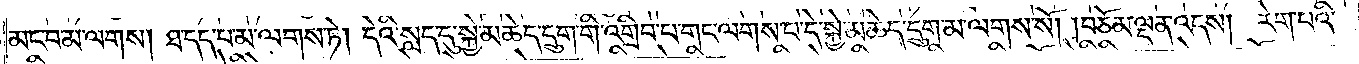མང་བ་མ་ལགས། ཐ་དད་པ་མ་ལགས་ཏེ། དེའི་སླད་དུ་སྐྱེ་མཆེད་དྲུག་གི་འགྲིབ་པ་གང་ལགས་པ་དེ་སྐྱེ་མཆེད་དྲུག་མ་ལགས་སོ། ། བཅོམ་ལྡན་འདས། རེག་པའི་
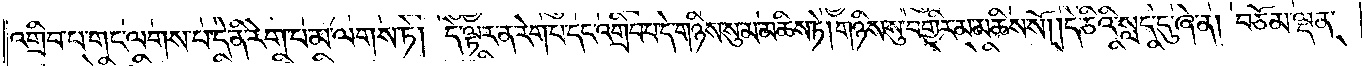འགྲིབ་པ་གང་ལགས་པ་དེ་ནི་རེག་པ་མ་ལགས་ཏེ། དེ་ལྟར་ན་རེག་པ་དང་འགྲིབ་པ་དེ་གཉིས་སུ་མ་མཆིས་ཏེ། གཉིས་སུ་བགྱིར་མ་མཆིས་སོ། །དེ་ཅིའི་སླད་དུ་ཞེ་ན། བཅོམ་ལྡན་
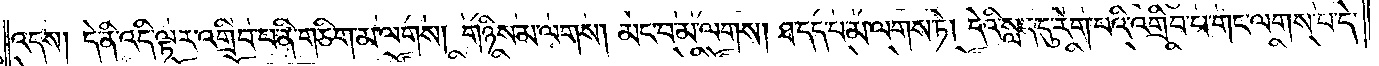འདས། དེ་ནི་འདི་ལྟར་འགྲིབ་པ་ནི་གཅིག་མ་ལགས། གཉིས་མ་ལགས། མང་བ་མ་ལགས། ཐ་དད་པ་མ་ལགས་ཏེ། དེའི་སླད་དུ་རེག་པའི་འགྲིབ་པ་གང་ལགས་པ་དེ་
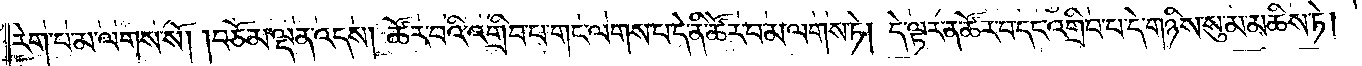རེག་པ་མ་ལགས་སོ། །བཅོམ་ལྡན་འདས། ཚོར་བའི་འགྲིབ་པ་གང་ལགས་པ་དེ་ནི་ཚོར་བ་མ་ལགས་ཏེ། དེ་ལྟར་ན་ཚོར་བ་དང་འགྲིབ་པ་དེ་གཉིས་སུ་མ་མཆིས་ཏེ།
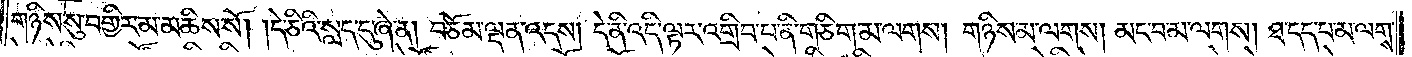གཉིས་སུ་བགྱིར་མ་མཆིས་སོ། །དེ་ཅིའི་སླད་དུ་ཞེ་ན། བཅོམ་ལྡན་འདས། དེ་ནི་འདི་ལྟར་འགྲིབ་པ་ནི་གཅིག་མ་ལགས། གཉིས་མ་ལགས། མང་བ་མ་ལགས། ཐ་དད་པ་མ་ལགས་
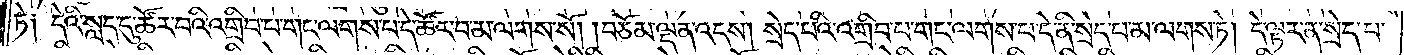ཏེ༑ དེའི་སླད་དུ་ཚོར་བའི་འགྲིབ་པ་གང་ལགས་པ་དེ་ཚོར་བ་མ་ལགས་སོ། །བཅོམ་ལྡན་འདས། སྲེད་པའི་འགྲིབ་པ་གང་ལགས་པ་དེ་ནི་སྲེད་པ་མ་ལགས་ཏེ། དེ་ལྟར་ན་སྲེད་པ་
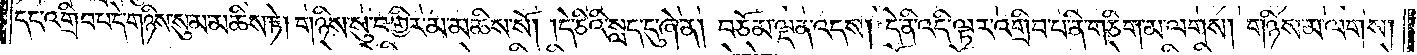དང་འགྲིབ་པ་དེ་གཉིས་སུ་མ་མཆིས་ཏེ། གཉིས་སུ་བགྱིར་མ་མཆིས་སོ། །དེ་ཅིའི་སླད་དུ་ཞེ་ན། བཅོམ་ལྡན་འདས། དེ་ནི་འདི་ལྟར་འགྲིབ་པ་ནི་གཅིག་མ་ལགས། གཉིས་མ་ལགས།
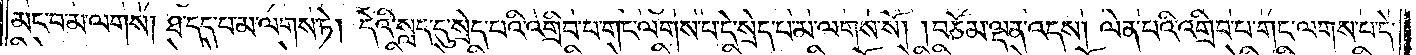མང་བ་མ་ལགས། ཐ་དད་པ་མ་ལགས་ཏེ། དེའི་སླད་དུ་སྲེད་པའི་འགྲིབ་པ་གང་ལགས་པ་དེ་སྲེད་པ་མ་ལགས་སོ། །བཅོམ་ལྡན་འདས། ལེན་པའི་འགྲིབ་པ་གང་ལགས་པ་དེ་
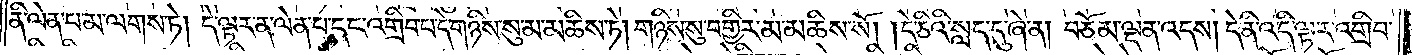ནི་ལེན་པ་མ་ལགས་ཏེ། དེ་ལྟར་ན་ལེན་པ་དང་འགྲིབ་པ་དེ་གཉིས་སུ་མ་མཆིས་ཏེ། གཉིས་སུ་བགྱིར་མ་མཆིས་སོ། །དེ་ཅིའི་སླད་དུ་ཞེ་ན། བཅོམ་ལྡན་འདས། དེ་ནི་འདི་ལྟར་འགྲིབ་
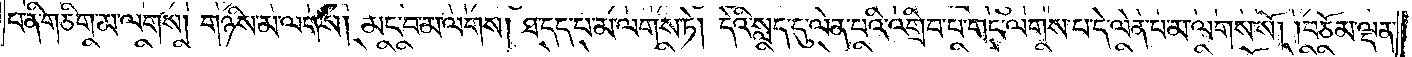པ་ནི་གཅིག་མ་ལགས། གཉིས་མ་ལགས། མང་བ་མ་ལགས། ཐ་དད་པ་མ་ལགས་ཏེ། དེའི་སླད་དུ་ལེན་པའི་འགྲིབ་པ་གང་ལགས་པ་དེ་ལེན་པ་མ་ལགས་སོ། །བཅོམ་ལྡན་
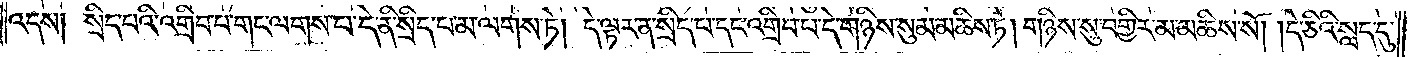འདས། སྲིད་པའི་འགྲིབ་པ་གང་ལགས་པ་དེ་ནི་སྲིད་པ་མ་ལགས་ཏེ། དེ་ལྟར་ན་སྲིད་པ་དང་འགྲིབ་པ་དེ་གཉིས་སུ་མ་མཆིས་ཏེ། གཉིས་སུ་བགྱིར་མ་མཆིས་སོ། །དེ་ཅིའི་སླད་དུ་
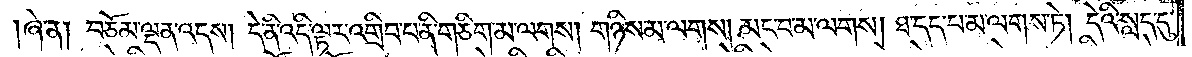ཞེ་ན། བཅོམ་ལྡན་འདས། དེ་ནི་འདི་ལྟར་འགྲིབ་པ་ནི་གཅིག་མ་ལགས། གཉིས་མ་ལགས། མང་བ་མ་ལགས། ཐ་དད་པ་མ་ལགས་ཏེ། དེའི་སླད་དུ་
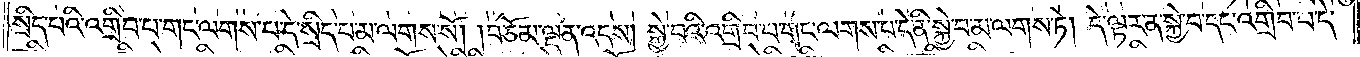སྲིད་པའི་འགྲིབ་པ་གང་ལགས་པ་དེ་སྲིད་པ་མ་ལགས་སོ། །བཅོམ་ལྡན་འདས། སྐྱེ་བའི་འགྲིབ་པ་གང་ལགས་པ་དེ་ནི་སྐྱེ་བ་མ་ལགས་ཏེ། དེ་ལྟར་ན་སྐྱེ་བ་དང་འགྲིབ་པ་དེ་
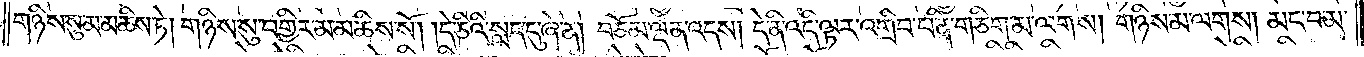གཉིས་སུ་མ་མཆིས་ཏེ། གཉིས་སུ་བགྱིར་མ་མཆིས་སོ། །དེ་ཅིའི་སླད་དུ་ཞེ་ན། བཅོམ་ལྡན་འདས། དེ་ནི་འདི་ལྟར་འགྲིབ་པ་ནི་གཅིག་མ་ལགས། གཉིས་མ་ལགས། མང་བ་མ་
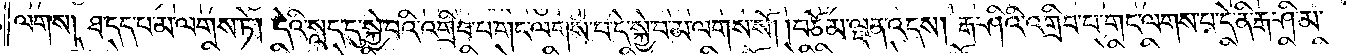ལགས། ཐ་དད་པ་མ་ལགས་ཏེ། དེའི་སླད་དུ་སྐྱེ་བའི་འགྲིབ་པ་གང་ལགས་པ་དེ་སྐྱེ་བ་མ་ལགས་སོ། །བཅོམ་ལྡན་འདས། རྒ་ཤིའི་འགྲིབ་པ་གང་ལགས་པ་དེ་ནི་རྒ་ཤི་མ་
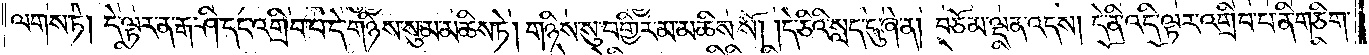ལགས་ཏེ། དེ་ལྟར་ན་རྒ་ཤི་དང་འགྲིབ་པ་དེ་གཉིས་སུ་མ་མཆིས་ཏེ། གཉིས་སུ་བགྱིར་མ་མཆིས་སོ། །དེ་ཅིའི་སླད་དུ་ཞེ་ན། བཅོམ་ལྡན་འདས། དེ་ནི་འདི་ལྟར་འགྲིབ་པ་ནི་གཅིག་
